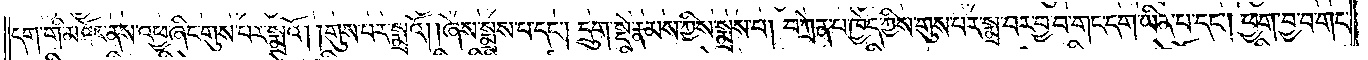དག་གི་མཐོང་ནས་འཕྱ་ཞིང་གུས་པར་སྨྲའོ། །གུས་པར་སྨྲའོ། །ཞེས་སྨྲས་པ་དང༌། དྲུག་སྡེ་རྣམས་ཀྱིས་སྨྲས་པ། བཀྲེན་པ་ཁྱེད་ཀྱིས་གུས་པར་སྨྲ་བར་བྱ་བ་གང་དག་ཡིན་པ་དང༌། ཕྱག་བྱ་བ་གང་
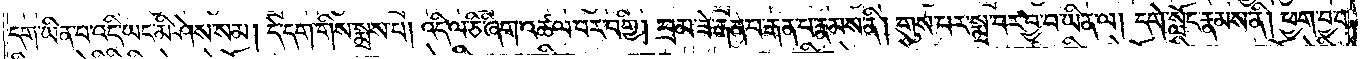དག་ཡིན་པ་འདི་ཡང་མི་ཤེས་སམ། དེ་དག་གིས་སྨྲས་པ། འདི་ལ་ཅི་ཞིག་འཚལ་བར་བགྱི། བྲམ་ཟེ་རྒན་པ་རྒན་པ་རྣམས་ནི། གུས་པར་སྨྲ་བར་བྱ་བ་ཡིན་ལ། དགེ་སློང་རྣམས་ནི། ཕྱག་བྱ་བ་
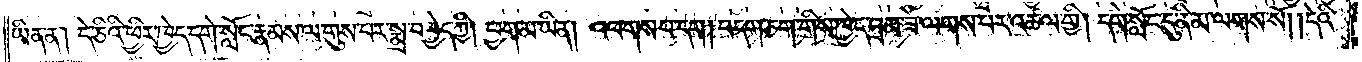ཡིན་ན། དེ་ཅིའི་ཕྱིར་ཁྱེད་དགེ་སློང་རྣམས་ལ་གུས་པར་སྨྲ་བ་བྱེད་ཀྱི། ཕྱག་མ་ཡིན། འཕགས་པ་དག །བདག་ཅག་གིས་ཁྱེད་བྲམ་ཟེ་ལགས་པར་འཚལ་གྱི། དགེ་སློང་དུ་ནི་མ་ལགས་སོ། །དེའི་
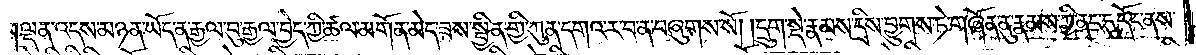།ལྡན་འདས་མཉན་ཡོད་ན་རྒྱལ་བུ་རྒྱལ་བྱེད་ཀྱི་ཚལ་མགོན་མེད་ཟས་སྦྱིན་གྱི་ཀུན་དགའ་ར་བ་ན་བཞུགས་སོ། །དྲུག་སྡེ་རྣམས་དྲིས་བྱུགས་ཏེ་གཞོན་ནུ་རྣམས་ཀྱི་ནང་དུ་དོང་ནས་
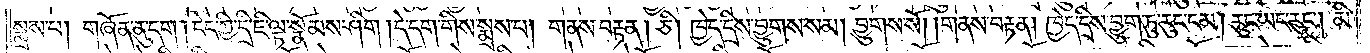སྨྲས་པ། གཞོན་ནུ་དག །ངེད་ཀྱི་དྲི་ཇི་ལྟ་སྣོམས་ཤིག །དེ་དག་གིས་སྨྲས་པ། གནས་བརྟན། ཅི། ཁྱེད་དྲིས་བྱུགས་སམ། བྱུགས་སོ། །གནས་བརྟན། ཁྱེད་དྲིས་བྱུག་ཏུ་རུང་ངམ། རུང་ཡང་རུང༌། མི་
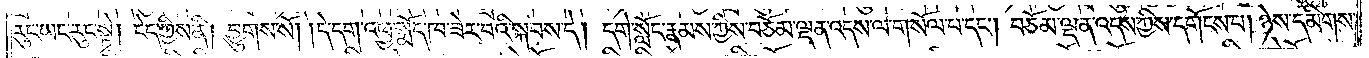རུང་ཡང་རུང་སྟེ། ངེད་ཀྱིས་ནི། བྱུགས་སོ། །དེ་དག་འཕྱ་སྨོད་ཁ་ཟེར་བའི་སྐབས་དེ། དགེ་སློང་རྣམས་ཀྱིས་བཅོམ་ལྡན་འདས་ལ་གསོལ་པ་དང༌། བཅོམ་ལྡན་འདས་ཀྱིས་དགོངས་པ། ཉེས་དམིགས་
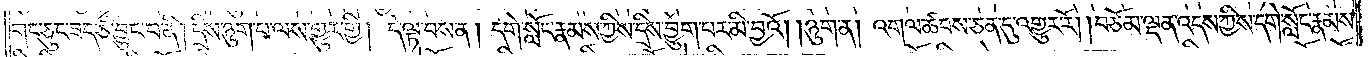གང་ཅུང་ཟད་ཅི་བྱུང་བ་ནི། དྲིས་ཉུག་པ་ལས་གྱུར་གྱི། དེ་ལྟ་བས་ན། དགེ་སློང་རྣམས་ཀྱིས་དྲིས་བྱུག་པར་མི་བྱའོ། །ཉུག་ན། འགལ་ཚབས་ཅན་དུ་འགྱུར་རོ། །བཅོམ་ལྡན་འདས་ཀྱིས་དགེ་སློང་རྣམས་
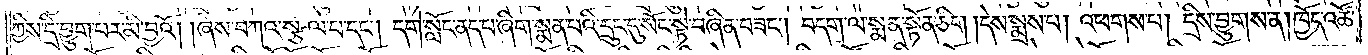ཀྱིས་དྲི་བྱུག་པར་མི་བྱའོ། །ཞེས་བཀའ་སྩལ་པ་དང༌། དགེ་སློང་ནད་པ་ཞིག་སྨན་པའི་དྲུང་དུ་སོང་སྟེ་བཞིན་བཟང༌། བདག་ལ་སྨན་སྟོན་ཅིག །དེས་སྨྲས་པ། འཕགས་པ། དྲིས་བྱུགས་ན། ཁྱོད་འཚོ་
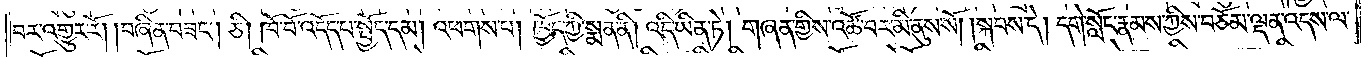བར་འགྱུར་རོ། །བཞིན་བཟང༌། ཅི། ཁོ་བོ་འདོད་པ་སྤྱོད་དམ། འཕགས་པ། ཁྱོད་ཀྱི་སྨན་ནི། འདི་ཡིན་ཏེ། གཞན་གྱིས་འཚོ་བར་མི་ནུས་སོ། །སྐབས་དེ། དགེ་སློང་རྣམས་ཀྱིས་བཅོམ་ལྡན་འདས་ལ་
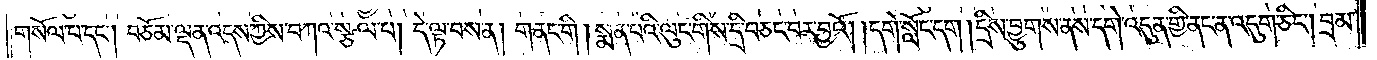གསོལ་པ་དང༌། བཅོམ་ལྡན་འདས་ཀྱིས་བཀའ་སྩལ་པ། དེ་ལྟ་བས་ན། གནང་གི །སྨན་པའི་ལུང་གིས་དྲི་བཅང་བར་བྱའོ། །དགེ་སློང་དག །དྲིས་བྱུགས་ནས་དགེ་འདུན་གྱི་ནང་ན་འདུག་ཅིང༌། བྲམ་
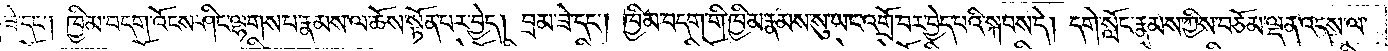ཟེ་དང༌། ཁྱིམ་བདག་འོངས་ཤིང་ལྷགས་པ་རྣམས་ལ་ཆོས་སྟོན་པར་བྱེད། བྲམ་ཟེ་དང༌། ཁྱིམ་བདག་གི་ཁྱིམ་རྣམས་སུ་ཡང་འགྲོ་བར་བྱེད་པའི་སྐབས་དེ། དགེ་སློང་རྣམས་ཀྱིས་བཅོམ་ལྡན་འདས་ལ་
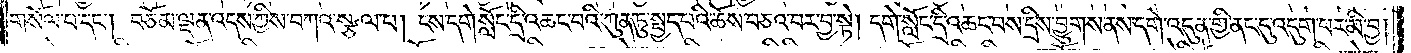གསོལ་པ་དང༌། བཅོམ་ལྡན་འདས་ཀྱིས་བཀའ་སྩལ་པ། ངས་དགེ་སློང་དྲི་འཆང་བའི་ཀུན་ཏུ་སྤྱད་པའི་ཆོས་བཅའ་བར་བྱ་སྟེ། དགེ་སློང་དྲི་འཆང་བས་དྲིས་བྱུགས་ནས་དགེ་འདུན་གྱི་ནང་དུ་འདུག་པར་མི་བྱ།
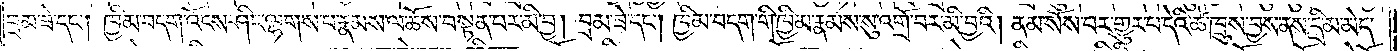བྲམ་ཟེ་དང༌། ཁྱིམ་བདག་འོངས་ཤིང་ལྷགས་པ་རྣམས་ལ་ཆོས་བསྟན་པར་མི་བྱ། བྲམ་ཟེ་དང༌། ཁྱིམ་བདག་གི་ཁྱིམ་རྣམས་སུ་འགྲོ་བར་མི་བྱའི། ནམ་སོས་པར་གྱུར་པ་དེའི་ཚེ་ཁྲུས་བྱས་ནས་དྲི་མ་མེད་
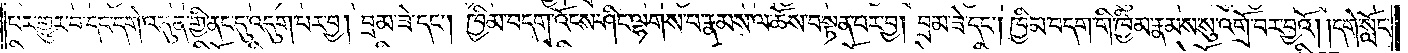པར་གྱུར་བ་དང་དགེ་འདུན་གྱི་ནང་དུ་འདུག་པར་བྱ། བྲམ་ཟེ་དང༌། ཁྱིམ་བདག་འོངས་ཤིང་ལྷགས་པ་རྣམས་ལ་ཆོས་བསྟན་པར་བྱ། བྲམ་ཟེ་དང༌། ཁྱིམ་བདག་གི་ཁྱིམ་རྣམས་སུ་འགྲོ་བར་བྱའོ། །དགེ་སློང་
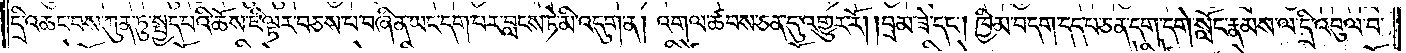དྲི་འཆང་བས་ཀུན་ཏུ་སྤྱད་པའི་ཆོས་ཇི་ལྟར་བཅས་པ་བཞིན་ཡང་དག་པར་བླངས་ཏེ་མི་འདུག་ན། འགལ་ཚབས་ཅན་དུ་འགྱུར་རོ། །བྲམ་ཟེ་དང༌། ཁྱིམ་བདག་དད་པ་ཅན་དག་དགེ་སློང་རྣམས་ལ་དྲི་འབུལ་བ་
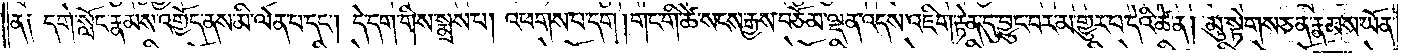ན། དགེ་སློང་རྣམས་འགྱོད་ནས་མི་ལེན་པ་དང༌། དེ་དག་གིས་སྨྲས་པ། འཕགས་པ་དག །གང་གི་ཚེ་སངས་རྒྱས་བཅོམ་ལྡན་འདས་འཇིག་རྟེན་དུ་བྱུང་བར་མ་གྱུར་པ་དེའི་ཚེ་ན། མུ་སྟེགས་ཅན་རྣམས་ཡོན་
